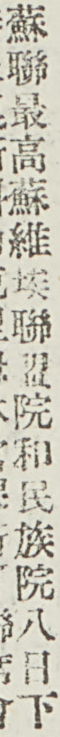蘇聯最高蘇維埃聯盟院和民族院八日下
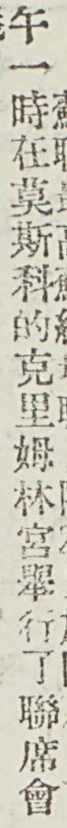午一時在莫斯科的克里姆林宮舉行了聯席會
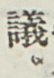議。
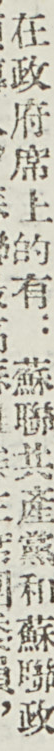在政府席上的有：蘇聯共產黨和蘇聯政
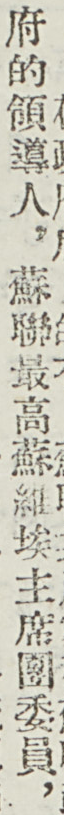府的領導人，蘇聯最高蘇維埃主席團委員，
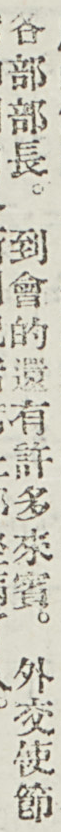各部部長。到會的還有許多來賓。外交使節
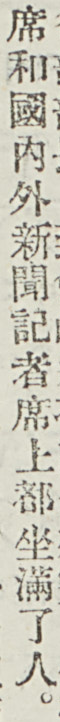席和國內外新聞記者席上都坐滿了人。
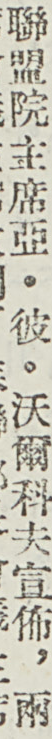聯盟院主席亞・彼・沃爾科夫宣佈，兩
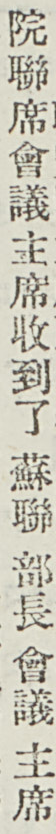院聯席會議主席收到了蘇聯部長會議主席
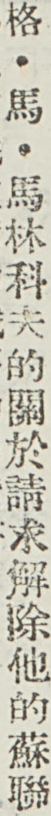格・馬・馬林科夫的關於請求解除他的蘇聯
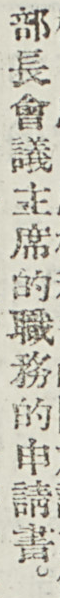部長會議主席的職務的申請書。
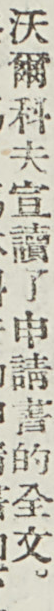沃爾科夫宣讀了申請書的全文。
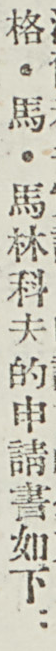格・馬・馬林科夫的申請書如下：
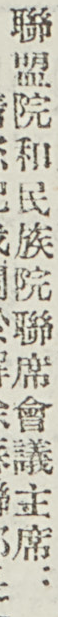聯盟院和民族院聯席會議主席：
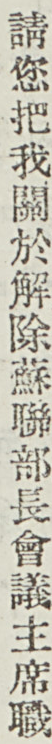請您把我關於解除蘇聯部長會議主席職
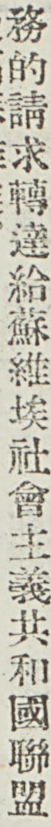務的請求轉達給蘇維埃社會主義共和國聯盟
